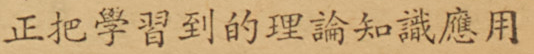正把學習到的理論知識應用
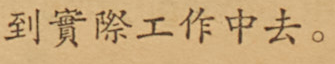到實際工作中去。
